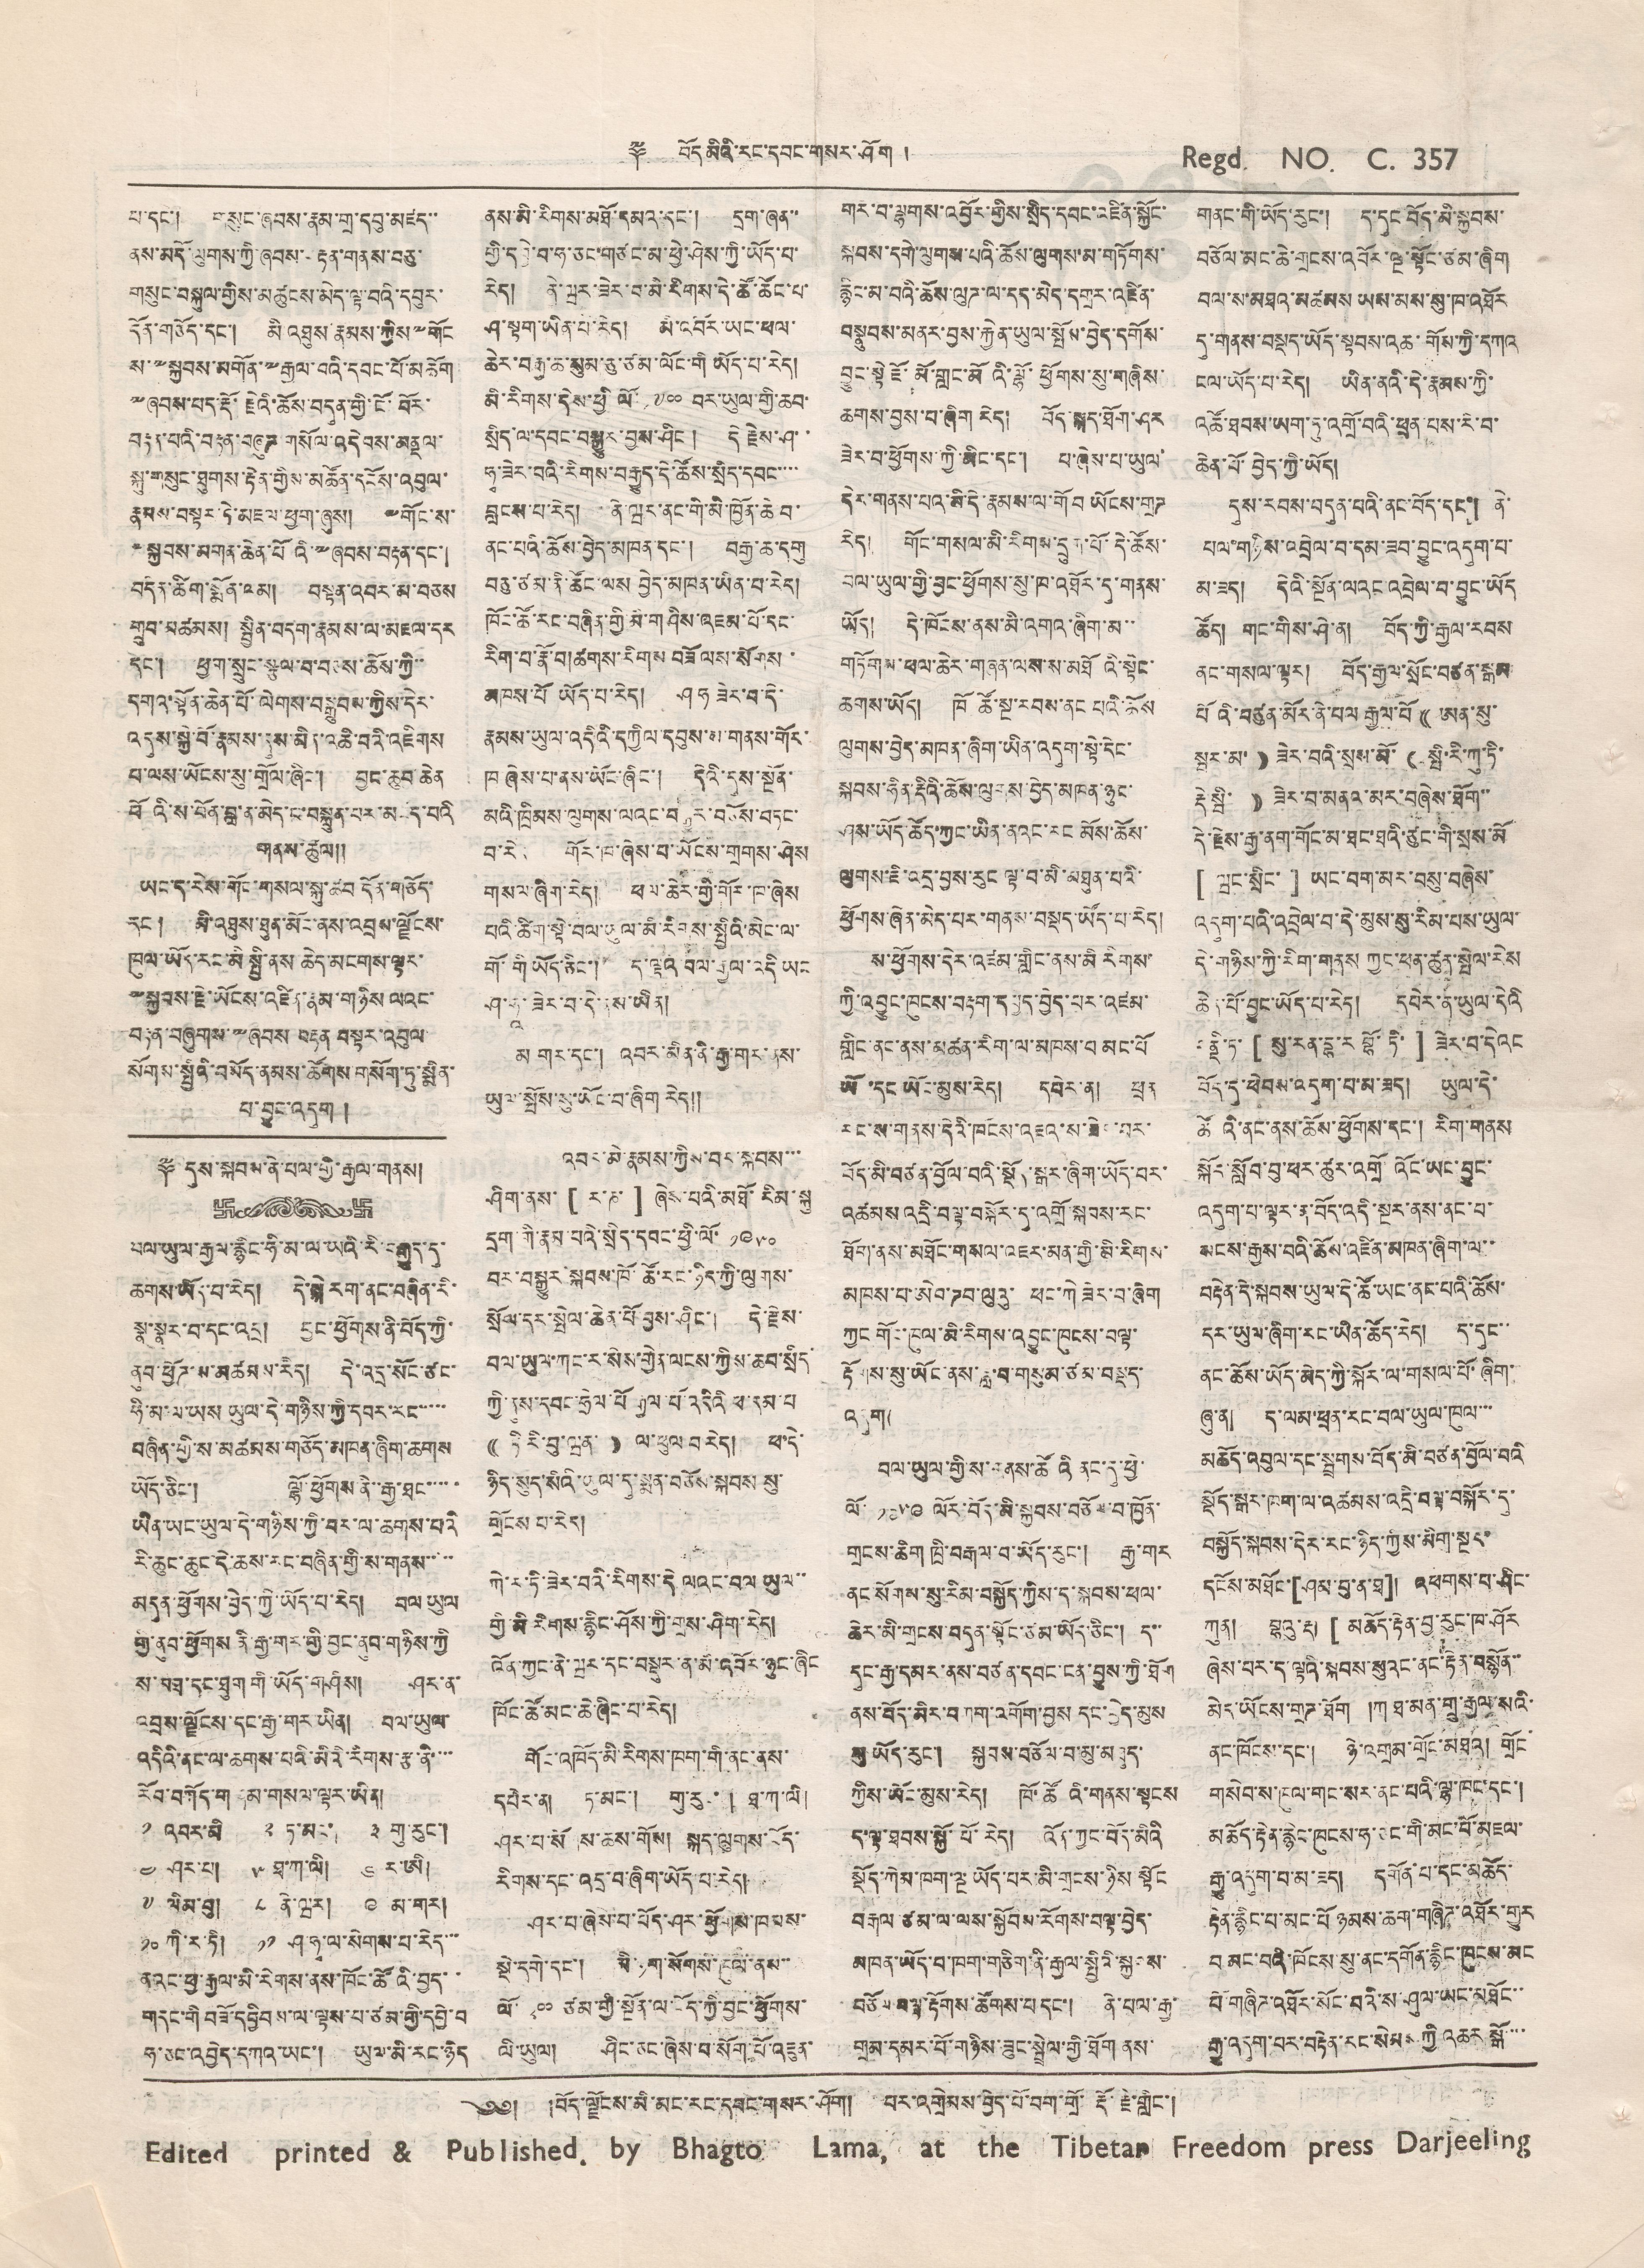༈  བོད་མིའི་རང་དབང་གསར་ཤོག །                 Regd.   NO.   C.  357
པ་དང་། གསུང་ཞབས་རྣམ་གྲུ་དབུ་མཛད་་
ནས་མདོ་ལུགས་ཀྱི་ཞབས་བརྟན་གནས་བཅུ་
གསུང་བསྐུལ་གྱིས་མཚུངས་མེད་ལྟ་བའི་དབུར་
དོན་གཅོད་དང་། མི འཐུས་རྣམས་ཀྱིས་༸གོང
ས་༸སྐྱབས་མགོན་༸རྒྱལ་བའི་དབང་པོ་མཆོག
༸ཞབས་པད་རྡོ་རྗེའི་ཆོས་བདུན་གྱི་ངོ་བོར་
བརྟན་པའི་བརྟན་བཞུཌ གསོལ་འདེབས་མནྡལ་
སྐུ་གསུང་ཐུགས་རྟེན་གྱིས་མཚོན་དངོས་འབུལ་
རྣམས་བསྟར་ཏེ་མཇལ་ཕྱག་ཞུས། ༸གོང་ས་
༸སྐྱབས་མགན་ཆེན་པོའི་༸ཞབས་བརྟན་དང་།
བདེན་ཚིག་སྨོན་ལམ། བསྟན་འབར་མ་བཅས
གྲུབ་མཚམས། སྦྱིན་བདག་རྣམས་ལ་མཇལ་དར
དེང་། ཕྱག་སྲུང་སྩལ་བ་བཅས་ཆོས་ཀྱི་་
དགའ་སྟོན་ཆེན་པོ་ལེགས་བསྒྲུབས་ཀྱིས་དེར་
འདུས་སྐྱེ་བོ་རྣམས་དུས་མིན་འཆི་བའི་འཇིགས
པ་ལས་ཡོངས་སུ་གྲོལ་ཞིང་། བྱང་ཆུབ་ཆེན
ཕོའི་ས་བོན་བླ་ན་མེད་ང་བསྐྲུན་པར་མཛད་པའི་
གནས་ཚུལ།།
ཡང་ད་རེས་གོང་གསལ་སྐུ་ཚབ དོན་གཅོད་
དང ། མི་འཐུས་ཐུན་མོང་ནས་འབྲས་ལྗོངས་
ཁུལ་ཡོད་རང་མི སྤྱི་ནས་ཆེད་མངགས་ལྟར་
༸སྐྱབས་རྗེ་ཡོངས་འཛིན་རྣམ་གཉིས ལའང་
བརྟན་བཞུགས་༸ཞབས བརྟན བསྟར་འབུལ་
སོགས་སྤྱིའི་བམོད་ནམས་ཚོགས་གསོག་ཏུ་སྨིན་
པ་བྱུང་འདུག །
༈་དུས་སྐབས་ནེ་པལ་གྱི་རྒྱལ་གནས།
བལ་ཡུལ་རྒྱལ་རྙིང་ཧི་མ་ལ་ཡའི་རི་བརྒྱུད་དུ་
ཆགས་ཡོད་པ་རེད། དེ་སྐེ རག་ནང་བཞིན་རི་
སྣ་སྣུར་བ་དང་འདྲ། བྱང་ཕྱོགས་ནི་བོད་ཀྱི་
ནུབ་ཕྱོཊ་ས་མཚམས་རེད། དེ་འདྲ་སོང་ཙང་
ཧི་མ་ལ་ཡས ཡུལ་དེ་གཉིས་ཀྱི་དབར་རང་་་་་
བཞིན་གྱི་ས་མཚམས་གཅོད་མཁན་ཞིག་ཆགས
ཡོད་ཅིང་། ལྷོ་ཕྱོགས་ནི་རྒྱ་ཐང་་་་་
ཡིན་ཡང་ཡུལ་དེ་གཉིས་ཀྱི་བར་ལ་ཆགས་པའི
རི་ཆུང་ཆུང་དེ་ཆས་རང་བཞིན་གྱི་ས་གནས་་་་
མདུན་ཕྱོགས་བྱེད་ཀྱི་ཡོད་པ་རེད། བལ ཡུལ
གྱི་ནུབ་ཕྱོགས ནི་རྒྱ་གར་གྱི་བྱང་ནུབ་གཉིས་ཀྱི
ས་མཐ་དང་ཐུག གི་ཡོད་གཤིས། ཤར་ན་
འབྲས་ལྗོངས་དང་རྒྱ་གར་ཡིན། བལ་ཡུལ་
འདིའི་ནང་ལ་ཆགས་པའི་མིའི་རིགས་རྩ་ནི་་་་
རོབ་བཀོད་གནམ་གསལ་ལྟར་ཡིན། །
༡ འབར་མི ༢ ཏ་མང་། ༣ གུ་རུང་།
༤ ཤར་པ། ༥ ཐ་ཀ་ལི། ༦ ར་ཨི།
༧ ལིམ་བུ། ༨ ནེ་ཝར། ༩ མ་གར།
༡༠ ཀི་ར་ཏི། ༡༡ ཤ་ཧ་ལ་སེགས་པ་རེད་་་
ནའང་ཕྱ་རྒྱལ་མི་རིགས་ནས་ཁོང་ཚོའི་བྱད་
གདང་གི་བཟོ་དབྱིབས་ལ་ལྟས་པ་ཙམ་གྱི་དབྱེ་བ
ཧ་ཅང་འབྱེད་དཀའ་ཡང་། ཡུལ་མི་རང་ཉིད
ནས་མི་རིགས་མཐོ་དམའ་དང་། དྲུག་ཞན་་
གྱི་དབྱེ་བ་ཧ་ཅང་གཙང་མ་ཕྱེ་ཤེས་ཀྱི་ཡོད་པ་
རེད། ནེ་ཝར་ཟེར་བ་མི་རིགས་དེ་ཚོ་ཚོང་པ་
ཤ་སྟག་ཡིན་པ་རེད།  མི་འབོར་ཡང་ཕལ་
ཆེར་བརྒྱ་ཆ་སུམ་ཅུ་ཙམ་ལོང་གི་ཡོད་པ་རེད།
མི་རིགས་དེས་ཕྱི ལོ་ ༡༩༠ བར་ཡུལ་གྱི་ཆབ་
སྲིད་ལ་དབང་བསྒྱུར་བྱས་ཤིང་། དེ རྗེས་ཤ་
ཧ་ཟེར་བའི་རིགས་བརྒྱུད་དེ་ཚོས་སྲིད་དབང་་་་
བླངས་པ་རེད། ནེ་ཝར་ནང་གི་མི་ཁྱོན་ཆེ བ་
ནང་པའི་ཆོས་བྱེད་མཁན་དང་། བརྒྱ་ཆ་དགུ་
བཅུ་ཙམ་ནི་ཚོང་ལས བྱེད་མཁན་ཡིན་པ་རེད།
ཁོང་ཚོ་རང་བཞིན་གྱི་མི་གཤིས་འཇམ་པོ་དང་།
རིག་པ་རྣོ་བ།ཚགས་རིགས བཟོ ལས་སོགས་
མཁས་པོ ཡོད་པ་རེད། ཤ ཧ ཟེར་བ་དེ་
རྣམས་ཡུལ་འདིའི་དཀྱིལ་དབུས་མ་གནས་གོར་
ཁ ཞེས་པ་ནས་ཡོང་ཞིང་། དེའི་དུས་སྔོན་
མའི་ཁྲིམས་ལུགས་ལའང་བརྒྱུར་བཅོས་བཏང་
བ་རེ། གོར་ཁ་ཞེས་པ་ཡོངས་གྲགས་ཤེས
གསལ་ཞིག་རེད། ཕལ་ཆེར་གྱི་གོར་ཁ་ཞེས
པའི་ཚིག་སྟེ་བལ་ཡུལ་མི་རིགས་སྤྱིའི་མིང་ལ་
གོ་གི་ཡོད་ཅིང་། ད་ལྟའི་བལ་རྒྱལ་འདི ཡང
ཤ་ཧྭ་ཟེར་བ་དེ་ནས་ཡིན།
མ གར་དང་། འབར་མིན་ནི་རྒྱ་གར་ནས་
ཡུལ་སྤོས་སུ་ཡོང་བ་ཞིག རེད།།
འབར་མི་རྣམས་ཀྱིས་བར་སྐབས་་་
ཤིག་ནས་ [ ར་ཎ་ ] ཞེས་པའི་མཐོ་རིམ་སྐུ
དྲག་གི་རྣམ་པའི་སྲིད་དབང་ཕྱི་ལོ་ ༡༩༥༠
བར་བསྒྱུར་སྐབས་ཁོ་ཚོ་རང་ཉིད་ཀྱི་ལུགས་
སྲོལ་དར་སྤེལ་ཆེན་པོ་བྱས་ཤིང་། དེ་རྗེས་
བལ་ཡུལ་ཀང་ར་སེས་གྱེན་ལངས་ཀྱིས་ཆབ་སྲིད་
ཀྱི་ནས་དབང་ཧྲེལ་པོ རྒྱལ་པོ་འདིའི ཕ་རམ་པ
(( ཏི རི་བུ་ཝན་ )) ལ་ཕུལ བ རེད། ཕ་དེ་
ཉིད་སུད་སིའི་ཡུལ་དུ་སྨན་བཅོས་སྐབས སུ་
གྲོངས པ་རེད།
ཀེ་ར་ཏི་ཟེར་བའི་རིགས་དེ ལའང་བལ ཡུལ་་
གྱི་མི རིགས་རྙིང་ཤོས་ཀྱི་གྲས་ཤིག་རེད།
འོན་ཀྱང་ནེ་ཝར་དང་བསྡུར་ན་མོ་འབོར་ཉུང་ཞིང
ཁོང་ཚོ་མང་ཆེ་ཞིང་པ་རེད།
གོང་འཁོད་མི་རིགས་ཁག་གི་ནང་ནས་
དཔེར་ན། ཏ་མང་། གུ་རུང་། ཐ་ཀ་ལི།
ཤར་པ་སོགས་ཆས་གོས། སྐད་ལུགས་བོད་
རིགས་དང་འདྲ་བ་ཞིག་ཡོད་པ་རེད།
ཤར་པ་ཞེས་པ་བོད་ཤར་ཕྱོགས་ཁམས་
སྡེ་དགེ་དང་། མི་ཉག་སོགས་ཁུལ་ནས་་
ལོ་ ༢༠༠ ཙམ་གྱི་སྔོན་ལ་བོད་ཀྱི་བྱང་ཕྱོགས་
ལི་ཡུལ། ཤིང་ཅང་ཞེས་པ་སོག་པོ་འཇུན་
གར་བ་ལྷགས་འབྱོར་གྱིས་སྲིད་དབང་འཛིན་སྐྱོང་
སྐབས་དགེ་ལུགས་པའི་ཆོས་ལུགས་མ་གཏོགས་
རྙིང་མ་བའི་ཆོས་ལུཊ་ལ་དད་མེད་དགྲར་འཛིན་
བསྣུབས་མནར་བྱས་རྐྱེན་ཡུལ་སྤོས་བྱེད་དགོས་
བྱུང་སྟེ་ཇོ་མོ་གླང་མོའི་ལྷོ་ཕྱོགས་སུ་གཞིས་
ཆགས་བྱས་པ་ཞིག རེད། བོད་སྐད་ཐོག་ཤར
ཟེར་བ་ཕྱོགས་ཀྱི་མིང་དང་། པ་ཞེས་པ་ཡུལ་
དེར་གནས་པའི་མི་དེ་རྣམས་ལ་གོབ ཡོངས་གྲཊ
རེད།  གོང་གསལ་མི་རིགས་དྲུག་པོ་དེ་ཆོས་
བལ་ཡུལ་གྱི་བྱང་ཕྱོགས་སུ་ཁ་འཐོར་དུ་གནས་
ཡོད། དེ་ཁོངས་ནས་མི་འགའ་ཞིག་མ་་
གཏོགས་ཕལ་ཆེར་གཞན་ལས་ས་མཐོའི་སྟེང་
ཆགས་ཡོད། ཁོ་ཚོ་སྔ་རབས་ནང པའི་ཆོས
ལུགས་བྱེད་མཁན་ཞིག་ཡིན་འདུག་སྟེ་དེང་
སྐབས་ཧིན་རྡིའི་ཆོས་ལུགས་བྱེད་མཁན་ཉུང་
ཤས་ཡོད་ཚོད་ཀྱང་ཡིན་ནའང་རང་མོས་ཆོས་
ལུགས་ཇི་འདྲ་བྱས་རུང ལྟ་བ་མི་མཐུན་པའི་
ཕྱོགས་ཞེན་མེད་པར་གནས་བསྡད་ཡོད་པ་རེད།
ས་ཕྱོགས་དེར་འཛམ་གླིང་ནས་མི རིགས་
ཀྱི་འབྱུང་ཁུངས་བརྟག་དཔྱད་བྱེད་པར་འཛམ་
གླིང་ནང་ནས་མཚན་རིག་ལ་མཁས་པ མང་པོ
ཡོ་དང ཡོང་མུས་རེད། དཔེར་ན། ཕྲན
རང་ས་གནས་དེའི་ཁོངས་འཇའ་ས་ཟེར་པར་
བོད་མི་བཙན་བྱོལ་བའི་སྡོད་སྒར་ཞིག་ཡོད་པར་
འཚམས་འདྲི་བལྟ་བསྐོར་དུ་འགྲོ་སྐབས་རང་
ཐོག་ནས་མཐོང་གསལ་འཇར་མན་གྱི་མི་རིགས་
མཁས་པ་ཨེབ་ཌབ་ལུའུ་ ཕང་ཀེ་ཟེར་བ་ཞིག
ཀྱང གོང་ཁུལ་མི་རིགས་འབྱུང་ཁུངས་བལྟ་
རྟོགས་སུ་ཡོང་ནས་ཟླ་བ་གསུམ་ཙམ་བསྡད་
འདུག།
བལ་ཡུལ་གྱི་ས་གནས་ཚོའི ནང་དུ་ཕྱི་
ལོ་ ༡༩༥༩ ལོར་བོད་མི་སྐྱབས་བཅོལ་བ་ཁྱོན་
གྲངས་ཆིག ཁྲི་བརྒལ་བ་ཡོད་རུང་། རྒྱ་གར
ནང་སོགས་སུ་རིམ་བསྐྱོད་ཀྱིས་ད་སྐབས་ཕལ་
ཆེར་མི་གྲངས་བདུན་སྟོང་ཙམ་ཡོད་ཅིང་། ད་་
དང་རྒྱ་དམར་ནས་བཙན་དབང་ངན་བྱུས་ཀྱི་ཐོག
ནས་བོད་མིར་བཀག་འགོག་བྱས དང་བྱེད་མུས
གུ་ཡོད་རུང་། སྐྱབས་བཅོལ་བ་མུ་མཐུད་
ཀྱིས་ཡོང་མུས་རེད། ཁོ་ཚོའི་གནས་སྟངས
ད་ལྟ་ཐབས་སྐྱོ་པོ་རེད། འོན་ཀྱང་བོད་མིའི
སྡོད་ཀེམ་ཁག་ལྔ ཡོད་པར་མི་གྲངས་ཉིས་སྟོང
བརྒལ་ཙམ་ལ་ལས་སྐྱོབས་རོགས་བལྟ་བྱེད་
མཁན་ཡོད་པ་ཁག་གཅིག་ནི་རྒྱལ་སྤྱིའི་སྐྱབས་
བཅོལ་བལྟ་རྟོགས་ཚོགས་པ་དང་། ནེ་པལ་རྒྱ་
གྲམ་དམར་པོ་གཉིས་ཟུང་སྦྲེལ་གྱི་ཐོག ནས་
དུས་རབས་བདུན་པའི་ནང་བོད་དང་། ནེ་
པལ་གཉིས་འབྲེལ་བ་དམ་ཟུབ་བྱུང་འདུག་པ་
མ་ཟད། དེའི་སྔོན་ལའང་འབྲེལ་བ་བྱུང་ཡོད་
ཚོད། གང་གིས་ཤེ་ན། བོད་ཀྱི་རྒྱལ་རབས
ནང་གསལ་ལྟར། བོད་རྒྱལ་སྲོང་བཙུན་སྒམ་
པོའི་བཙུན་མོར་ནེ་པལ རྒྱལ་པོ (( ཨན་སུ་
སྦར་མ་ )) ཟེར་བའི་སྲས་མོ་ (( སྤྱི་རི་ཀུ་ཏི་
རྡེ་སྤི་ )) ཟེར་བ་མནའ་མར་བཞེས་ཐོག་་
དེ་རྗེས་རྒྱ་ནག་གོང་མ་ཐང་ཐའི་ཙུང་གི་སྲས་མོ
[ ཝང་སྲིང་ ] ཡང་བག་མར་བསུ་བཞེས་
འདུག་པའི་འབྲེལ་བ་དེ་མུས་སུ་རིམ་པས་ཡུལ་
དེ་གཉིས་ཀྱི་རིག་གནས ཀྱང་ཕན་ཚུན་སྤེལ་རེས
ཆེན་པོ་བྱུང་ཡོད་པ་རེད། དཔེར་ན་ཡུལ་དེའི་
རྡི་ཏ་ [ སུ་རན་དྷ་ར བྷོ་ཏི་ ] ཟེར་བ་དེའང
བོད་དུ་ཕེབས་འདུག་པ་མ་ཟད། ཡུལ་དེ་
ཚོའི་ནང་ནས་ཆོས་ཕྱོགས་དང་། རིག་གནས
སྐོར་སློབ་བུ་ཕར་ཚུར་འགྲོ་འོང་ཡང་བྱུང་
འདུག་པ་ལྟར་ན་བོད་འདི་སྔར་ནས་ནང་པ་
སངས་རྒྱས་པའི་ཆོས་འཛིན་མཁན་ཞིག་ལ་་
བརྟེན་དེ་སྐབས་ཡུལ་དེ་ཚོ་ཡང་ནང་པའི་ཆོས་
དར་ཡུལ་ཞིག་རང་ཡིན་ཚོད་རེད། ད་དུང་་
ནང་ཆོས་ཡོད་མེད་ཀྱི་སྐོར་ལ་གསལ་པོ་ཞིག་་
ཞུ་ན། ད་ལམ་ཕྲན་རང་བལ་ཡུལ་ཁུལ་་་
མཆོད་འབུལ་དང་སྦྲགས་བོད་མི་བཙན་བྱོལ་བའི་
སྡོད་སྒར་ཁག་ལ་འཚམས་འདྲི་བལྟ་བསྐོར་དུ་
བསྐྱོད་སྐབས་དེར་རང་ཉིད་ཀྱིས་མིག་སྔར་
དངོས་མཐོང་། [ ཤམ་བུ་ན་ཐ། ] འཕགས་པ་ཤིང་
ཀུན། གྷའུ་རྡ [ མཆོད་རྟེན་བྱ་རུང་ཁ་ཤོར
ཞེས་པར་ད་ལྟའི་སྐབས་སུའང་ནང་རྟེན་བསྙོན་་
མེད་ཡོངས་གྲཊ་ཐོག །ཀ ཐ་མན་གྲུ་རྒྱལ་སའི་
ནང་ཁོངས་དང་། ཉེ་འགྲམ་གྲོང་མཐའ། གྲོང་
གསེབ་ས་ཁུལ་གང་སར་ནང་པའི་ལྷ་ཁང་དང་།
མཆོད་རྟེན་རྙེང་ཁུངས་ཧ་ཅང་གི་མང་པོ་མཇལ་
རྒྱུ་འདུག་པ་མ་ཟད། དགོན་པ་དང་མཆོད་
རྟེན་རྙིང་པ་མང་པོ ཉམས་ཆག་གཞིཊ་འཐོར་གྱུར
བམང་བའི་ཁོངས་སུ་ནང་དགོན་རྙིང་ཁུངས་མང
པོ་གཞིཊ་འཐོར་སོང་བའི་ས་ཤུལ་ཡང་མཐོང་་
རྒྱུ་འདུག་པར་བརྟེན་རང་སེམས ཀྱི འཆར སྒོ་་་
གནང་གི་ཡོད་རུང་། ད་དུང བོད་མི་སྐྱབས་
བཅོལ་མང་ཆེ་གྲངས་འབོར་ལྔ་སྟོང་ཙམ་ཞིག
བལ་ས་མཐའ་མཚམས ཡས་མས་སུ་ཁ་འཐོར
དུ་གནས་བསྡད་ཡོད་སྟབས་འཆ་གོས་ཀྱི་དཀའ་
ངལ་ཡོད་པ་རེད། ཡིན་ནའི་དེ་རྣམས་ཀྱི་
འཚོ་ཐབས་ཡག་ཏུ་འགྲོ་བའི་ཕྲན་པས་རི་བ་
ཆེན་པོ་བྱེད་ཀྱི་ཡོད།
༄༅། །བོད་ལྗོངས་མི་མང་རང་དབང་གསར་ཤོག། པར་འགྲེམས་བྱེད་པོ་བག་གྲོ་རྡོ་རྗེ་གླིང་།
Edited printed & Published, by Bhagto Lama, at the Tibetan Freedom press Darjeeling
